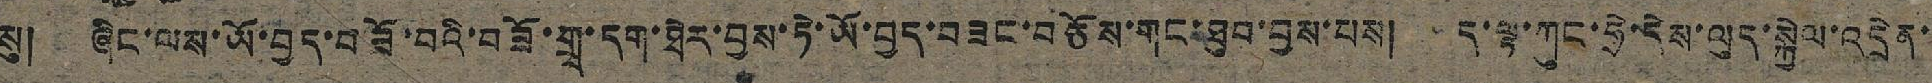སུ། ཞིང་ལས་ཡོ་བྱད་བཟོ་བའི་བཟོ་གྲྭ་དག་ཐེར་བྱས་ཏེ་ཡོ་བྱད་བཟང་བཅོས་གང་ཐུབ་བྱས་པས། ད་ལྟ་ཀུང་ཧྲེ་དེས་ལུད་སྐྱེལ་འདྲེན་
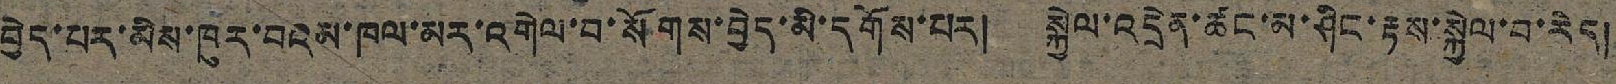བྱེད་པར་མེས་ཁུར་བའམ་ཁལ་མར་འགེལ་བ་སོགས་བྱེད་མི་དགོས་པར། སྐྱེལ་འདྲེན་ཚང་མ་ཤིང་རྟས་སྐྱེལ་བ་རེད།
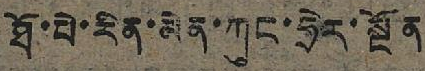ཐོ་པེ་རིན་མེན་ཀུང་ཧྲེར་སྔོན
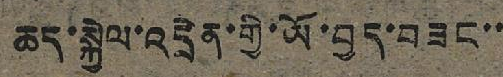ཆད་སྐྱེལ་འདྲེན་གྱི་ཡོ་བྱད་བཟང་་
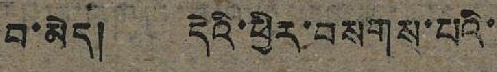བ་མེད། དེའི་ཕྱིར་བསགས་པའི་
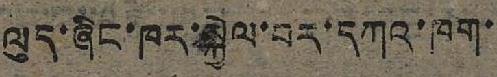ལུད་ཞིང་ཁར་སྐྱེལ་བར་དཀའ་ཁག་
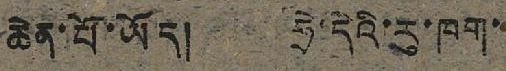ཆེན་པོ་ཡོད། ཧྲེ་དེའི་རུ་ཁག་་
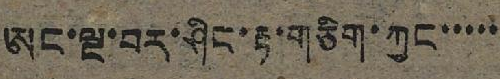ཨང་ལྔ་བར་ཤིང་རྟ་གཅིག་ཀྱང་་་་་
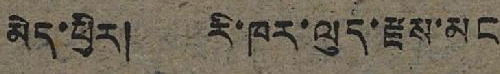མེད་ཕྱིར། རི་ཁར་ལུད་རྫས་མང
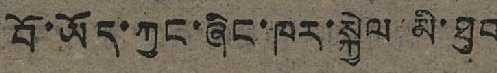བོ་ཡོད་ཀྱང་ཞིང་ཁར་སྐྱེལ་མི་ཐུབ
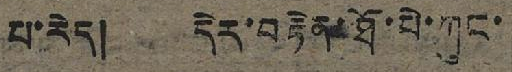པ་རེད། དེར་བརྟེན་ཐོ་པེ་ཀུང་
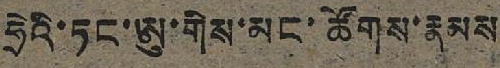ཧྲེའི་ཏང་ཨུ་གིས་མང་ཚོགས་རྣམས
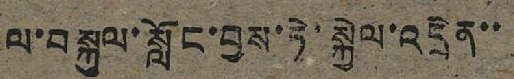ལ་བསྐུལ་སློང་བྱས་ཏེ་སྐྱེལ་འདྲེན་་
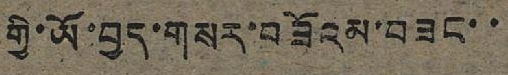གྱི་ཡོ་བྱད་གསར་བཟོའམ་བཟང་་
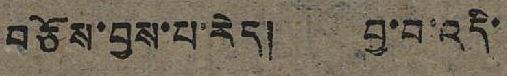བཅོས་བྱས་པ་རེད། བྱ་བ་འདི་
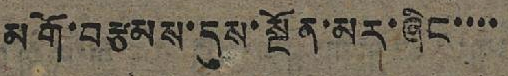མགོ་བརྩམས་དུས་སྔོན་མར་ཞིང་་་་
